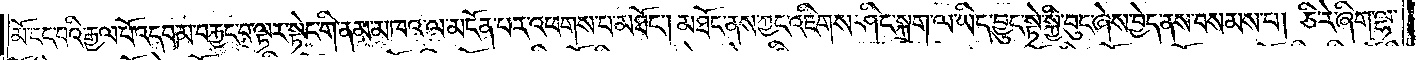མོ་ངང་པའི་རྒྱལ་པོ་འདབ་མ་བརྐྱང་བ་ལྟར་སྟེང་གི་ནམ་མཁའ་ལ་མངོན་པར་འཕགས་པ་མཐོང༌། །མཐོང་ནས་ཀྱང་འཇིགས་ཤིང་སྐྲག་ལ་ཡིད་བྱུང་སྟེ་སྐྱི་བུང་ཞེས་བྱེད་ནས་བསམས་པ། ཅི་རེ་ཞིག་ལྷ་
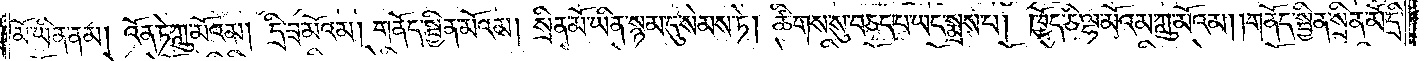མོ་ཡིན་ནམ། འོན་ཏེ་ཀླུ་མོའམ། དྲི་ཟ་མོའམ། གནོད་སྦྱིན་མོའམ། སྲིན་མོ་ཡིན་སྙམ་དུ་སེམས་ཏེ། ཚིགས་སུ་བཅད་པ་ཡང་སྨྲས་པ། ཁྱོད་ཅི་ལྷ་མོའམ་ཀླུ་མོའམ། །གནོད་སྦྱིན་སྲིན་མོ་དྲི་
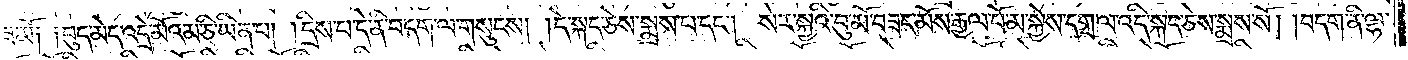ཟ་མོ༑ ༑བུད་མེད་འདྲེ་མོའམ་ཅི་ཡིན་པ། །དྲིས་པ་དེ་ནི་བདག་ལ་གསུངས། །དེ་སྐད་ཅེས་སྨྲས་པ་དང༌། སེར་སྐྱའི་བུ་མོ་བཟང་མོས་རྒྱལ་པོ་མ་སྐྱེས་དགྲ་ལ་འདི་སྐད་ཅེས་སྨྲས་སོ། །བདག་ནི་ལྷ་
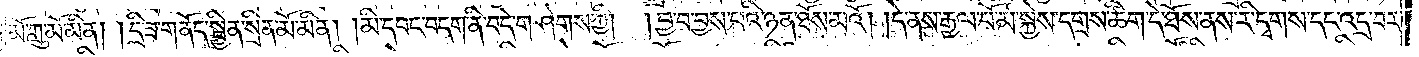མོ་ཀླུ་མོ་མིན། །དྲི་ཟ་གནོད་སྦྱིན་སྲིན་མོ་མིན། །མི་དབང་བདག་ནི་བདེ་གཤེགས་ཀྱི། །བྱ་བ་བྱས་པའི་ཉན་ཐོས་མའོ། །དེ་ནས་རྒྱལ་པོ་མ་སྐྱེས་དགྲས་ཚིག་དེ་ཐོས་ནས་རི་དྭགས་དང་འདྲ་བར་
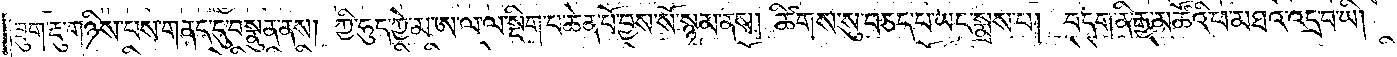ཟུག་རྔུ་གཉིས་པས་གནད་དུ་བསྣུན་ནས། ཀྱི་ཧུད་ཀྱེ་མ་ཨ་ལ་ལ་སྡིག་པ་ཆེན་པོ་བྱས་སོ་སྙམ་ནས། ཚིགས་སུ་བཅད་པ་ཡང་སྨྲས་པ། བདག་ནི་རྒྱ་མཚོའི་ཕ་མཐའ་འདྲ་བ་ཡི། །
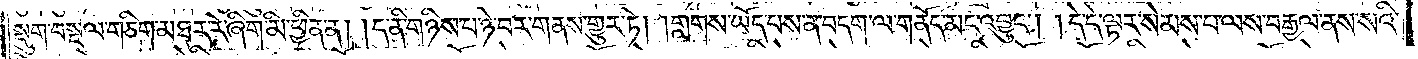སྡུག་བསྔལ་གཅིག་མཐར་རེ་ཞིག་མི་ཕྱིན་ན། །ད་ནི་གཉིས་པ་ཉེ་བར་གནས་གྱུར་ཏེ། །གླགས་ཡོད་པས་ན་བདག་ལ་གནོད་མང་འབྱུང༌། །དེ་དེ་ལྟར་སེམས་པ་ལས་བརྒྱལ་ནས་སའི་
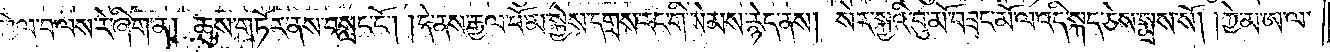སྟེང་དུ་འགྱེལ་བ་ལས་རེ་ཞིག་ན། ཆུས་གཏོར་ནས་བསླང་ངོ༌། །དེ་ནས་རྒྱལ་པོ་མ་སྐྱེས་དགྲས་རང་གི་སེམས་རྙེད་ནས། སེར་སྐྱའི་བུ་མོ་བཟང་མོ་ལ་འདི་སྐད་ཅེས་སྨྲས་སོ། །ཀྱེ་མ་ཨ་ལ་
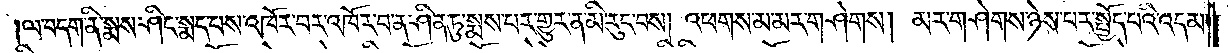ལ་བདག་ནི་སྨས་ཤིང་སྨད་པས་འཁོར་བར་འཁོར་བ་ན་ཤིན་ཏུ་སྨས་པར་གྱུར་ན་མི་རུང་བས། འཕགས་མ་མར་གཤེགས། མར་གཤེགས་ཉེས་པར་སྤྱོད་པའི་འདམ་
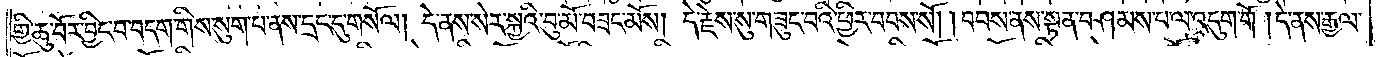གྱི་ཆུ་བོར་བྱིང་བ་བདག་གིས་སུག་པ་ནས་དྲང་དུ་གསོལ། དེ་ནས་སེར་སྐྱའི་བུ་མོ་བཟང་མོས། དེ་རྗེས་སུ་གཟུང་བའི་ཕྱིར་བབས་སོ། །བབས་ནས་སྟན་བཤམས་པ་ལ་འདུག་གོ །དེ་ནས་རྒྱལ་
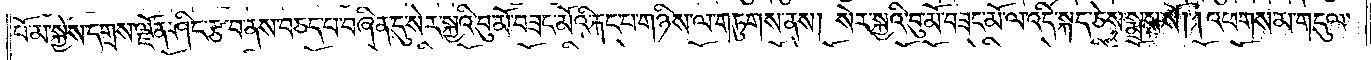པོ་མ་སྐྱེས་དགྲས་ལྗོན་ཤིང་རྩ་བ་ནས་བཅད་པ་བཞིན་དུ་སེར་སྐྱའི་བུ་མོ་བཟང་མོའི་རྐང་པ་གཉིས་ལ་གཏུགས་ནས། སེར་སྐྱའི་བུ་མོ་བཟང་མོ་ལ་འདི་སྐད་ཅེས་སྨྲས་སོ། །འཕགས་མ་གདུལ་
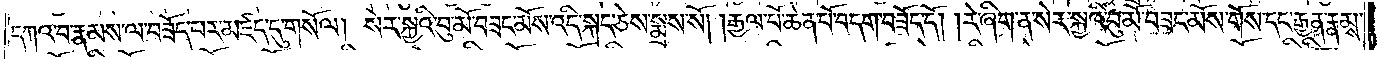དཀའ་བ་རྣམས་ལ་བཟོད་པར་མཛད་དུ་གསོལ། སེར་སྐྱའི་བུ་མོ་བཟང་མོས་འདི་སྐད་ཅེས་སྨྲས་སོ། །རྒྱལ་པོ་ཆེན་པོ་བདག་བཟོད་དོ། །རེ་ཞིག་ན་སེར་སྐྱའི་བུ་མོ་བཟང་མོས་གོས་དང་རྒྱན་རྣམས་
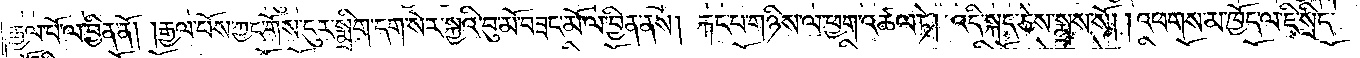རྒྱལ་པོ་ལ་བྱིན་ནོ། །རྒྱལ་པོས་ཀྱང་གོས་ངུར་སྨྲིག་དག་སེར་སྐྱའི་བུ་མོ་བཟང་མོ་ལ་བྱིན་ནས། རྐང་པ་གཉིས་ལ་ཕྱག་འཚལ་ཏེ། འདི་སྐད་ཅེས་སྨྲས་སོ། །འཕགས་མ་ཁྱོད་ལ་ཇི་སྲིད་
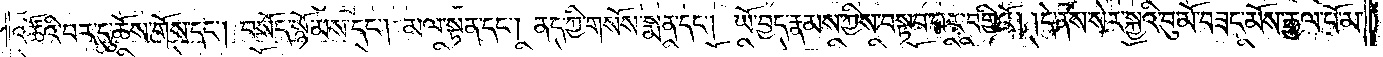འཚོའི་བར་དུ་ཆོས་གོས་དང༌། བསོད་སྙོམས་དང༌། མལ་སྟན་དང༌། ནད་ཀྱི་གསོས་སྨན་དང༌། ཡོ་བྱད་རྣམས་ཀྱིས་བསྟབ་པར་བགྱིའོ། །དེ་ནས་སེར་སྐྱའི་བུ་མོ་བཟང་མོས་རྒྱལ་པོ་མ་
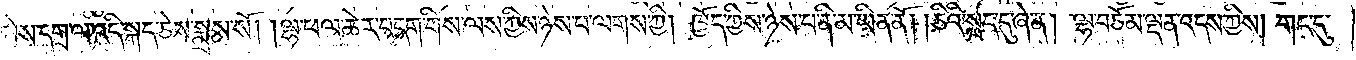སྐྱེས་དགྲ་ལ་འདི་སྐད་ཅེས་སྨྲས་སོ། །ལྷ་ཕལ་ཆེར་བདག་གིས་ལས་ཀྱིས་ཉེས་པ་ལགས་ཀྱི། ཁྱོད་ཀྱིས་ཉེས་པ་ནི་མ་ཡིན་ནོ། །ཅིའི་སླད་དུ་ཞེ་ན། ལྷ་བཅོམ་ལྡན་འདས་ཀྱིས། གང་དུ་
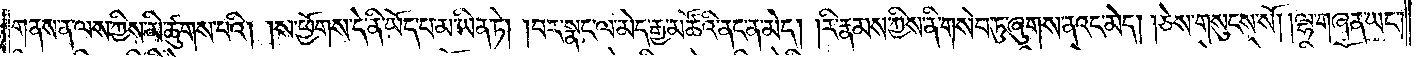གནས་ན་ལས་ཀྱིས་མི་ཚུགས་པའི། །ས་ཕྱོགས་དེ་ནི་ཡོད་པ་མ་ཡིན་ཏེ། །བར་སྣང་ལ་མེད་རྒྱ་མཚོའི་ནང་ན་མེད། །རི་རྣམས་ཀྱིས་ནི་གསེབ་ཏུ་ཞུགས་ནའང་མེད། །ཅེས་གསུངས་སོ། །ལྷ་གཞན་ཡང༌།
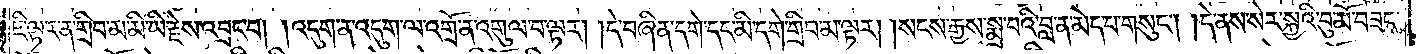ཇི་ལྟར་ན་གྲིབ་མ་མི་ཡི་རྗེས་འབྲང་བ། །འདུག་ན་འདུག་ལ་འགྲོ་ན་འགུལ་བ་ལྟར། །དེ་བཞིན་དགེ་དང་མི་དགེ་གྲིབ་མ་ལྟར། །སངས་རྒྱས་སྨྲ་བའི་བླ་ན་མེད་པ་གསུང༌། །དེ་ནས་སེར་སྐྱའི་བུ་མོ་བཟང་
